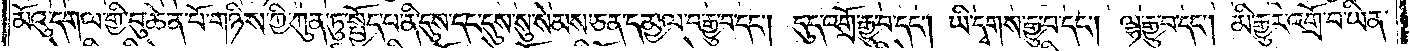མོའུ་དགལ་གྱི་བུ་ཆེན་པོ་གཉིས་ཀྱི་ཀུན་ཏུ་སྤྱོད་པ་ནི་དུས་དང་དུས་སུ་སེམས་ཅན་དམྱལ་བ་རྒྱུ་བ་དང༌། དུད་འགྲོ་རྒྱུ་བ་དང༌། ཡི་དྭགས་རྒྱུ་བ་དང༌། ལྷ་རྒྱུ་བ་དང༌། མི་རྒྱུར་འགྲོ་བ་ཡིན་
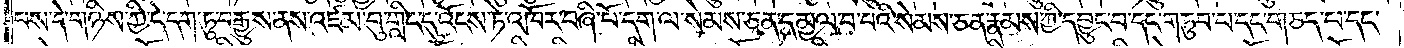པས་དེ་གཉིས་ཀྱི་དེ་དག་ཏུ་བརྒྱུས་ནས་འཛམ་བུ་གླིང་དུ་འོངས་ཏེ་འཁོར་བཞི་པོ་དག་ལ་སེམས་ཅན་དམྱལ་བ་པའི་སེམས་ཅན་རྣམས་ཀྱི་དབྱུང་བ་དང་གཏུབ་པ་དང་གཅད་པ་དང་
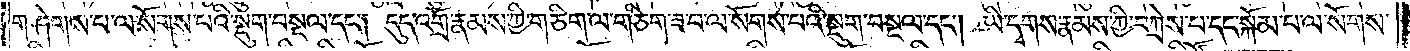གཤེགས་པ་ལ་སོགས་པའི་སྡུག་བསྔལ་དང༌། དུད་འགྲོ་རྣམས་ཀྱི་གཅིག་ལ་གཅིག་ཟ་བ་ལ་སོགས་པའི་སྡུག་བསྔལ་དང༌། ཡི་དྭགས་རྣམས་ཀྱི་བཀྲེས་པ་དང་སྐོམ་པ་ལ་སོགས་
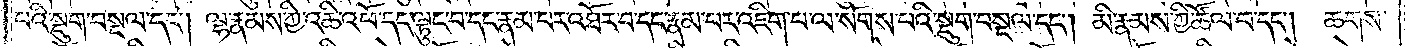པའི་སྡུག་བསྔལ་དང༌། ལྷ་རྣམས་ཀྱི་འཆི་འཕོ་དང་ལྟུང་བ་དང་རྣམ་པར་འཐོར་བ་དང་རྣམ་པར་འཇིག་པ་ལ་སོགས་པའི་སྡུག་བསྔལ་དང༌། མི་རྣམས་ཀྱི་ཚོལ་བ་དང༌། ཆགས་
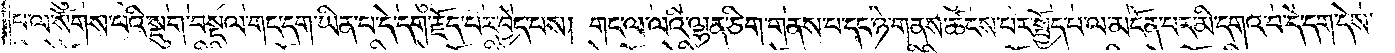པ་ལ་སོགས་པའི་སྡུག་བསྔལ་གང་དག་ཡིན་པ་དེ་དག་རྗོད་པར་བྱེད་པས། གང་ལ་ལའི་ལྷན་ཅིག་གནས་པ་དང་ཉེ་གནས་ཚངས་པར་སྤྱོད་པ་ལ་མངོན་པར་མི་དགའ་བ་དེ་དག་དེས་
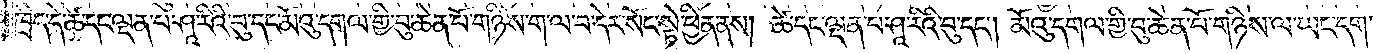ཁྲིད་དེ་ཚེ་དང་ལྡན་པ་ཤཱ་རིའི་བུ་དང་མོའུ་དགལ་གྱི་བུ་ཆེན་པོ་གཉིས་ག་ལ་བ་དེར་སོང་སྟེ་ཕྱིན་ནས། ཚེ་དང་ལྡན་པ་ཤཱ་རིའི་བུ་དང༌། མོའུ་དགལ་གྱི་བུ་ཆེན་པོ་གཉིས་ལ་ཡང་དག་
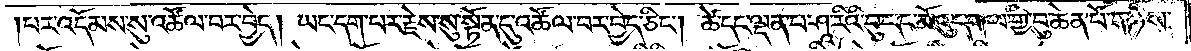པར་འདོམས་སུ་འཚོལ་བར་བྱེད། ཡང་དག་པར་རྗེས་སུ་སྟོན་དུ་འཚོལ་བར་བྱེད་ཅིང༌། ཚེ་དང་ལྡན་པ་ཤཱ་རིའི་བུ་དང་མོའུ་དགལ་གྱི་བུ་ཆེན་པོ་གཉིས་
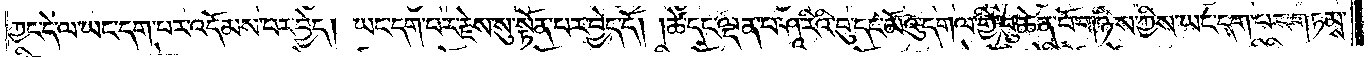ཀྱང་དེ་ལ་ཡང་དག་པར་འདོམས་པར་བྱེད། ཡང་དག་པར་རྗེས་སུ་སྟོན་པར་བྱེད་དོ། །ཚེ་དང་ལྡན་པ་ཤཱ་རིའི་བུ་དང་མོའུ་དགལ་གྱི་བུ་ཆེན་པོ་གཉིས་ཀྱིས་ཡང་དག་པར་གཏམས་
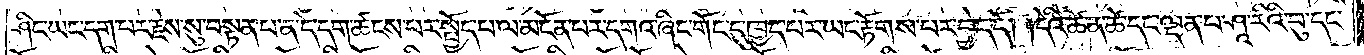ཤིང་ཡང་དག་པར་རྗེས་སུ་བསྟན་པ་ན་དེ་དག་ཚངས་པར་སྤྱོད་པ་ལ་མངོན་པར་དགའ་ཞིང་གོང་དུ་ཁྱད་པར་ཡང་རྟོགས་པར་བྱེད་དོ། །དེའི་ཚེ་ན་ཚེ་དང་ལྡན་པ་ཤཱ་རིའི་བུ་དང་
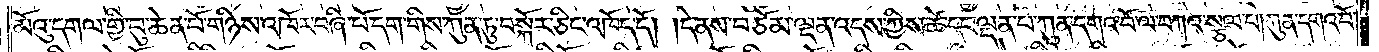མོའུ་དགལ་གྱི་བུ་ཆེན་པོ་གཉིས་འཁོར་བཞི་པོ་དག་གིས་ཀུན་ཏུ་བསྐོར་ཅིང་འཁོད་དོ། །དེ་ནས་བཅོམ་ལྡན་འདས་ཀྱིས་ཚེ་དང་ལྡན་པ་ཀུན་དགའ་བོ་ལ་བཀའ་སྩལ་པ། ཀུན་དགའ་བོ་
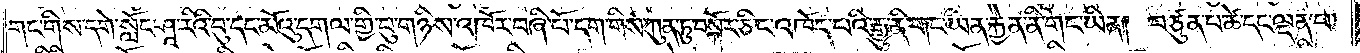གང་གིས་དགེ་སློང་ཤཱ་རིའི་བུ་དང་མོའུ་དགལ་གྱི་བུ་གཉིས་འཁོར་བཞི་པོ་དག་གིས་ཀུན་ཏུ་བསྐོར་ཅིང་འཁོད་པའི་རྒྱུ་ནི་གང་ཡིན་རྐྱེན་ནི་གང་ཡིན། བཙུན་པ་ཚེ་དང་ལྡན་པ་
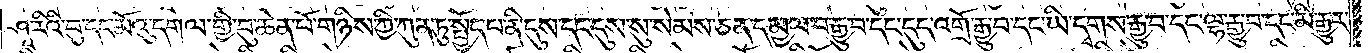ཤཱ་རིའི་བུ་དང་མོའུ་དགལ་གྱི་བུ་ཆེན་པོ་གཉིས་ཀྱི་ཀུན་ཏུ་སྤྱོད་པ་ནི་དུས་དང་དུས་སུ་སེམས་ཅན་དམྱལ་བ་རྒྱུ་བ་དང་དུད་འགྲོ་རྒྱུ་བ་དང་ཡི་དྭགས་རྒྱུ་བ་དང་ལྷ་རྒྱུ་བ་དང་མི་རྒྱུར་
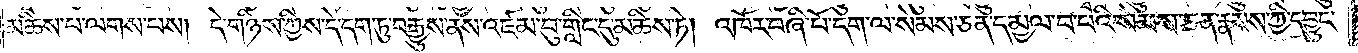མཆིས་པ་ལགས་པས། དེ་གཉིས་ཀྱིས་དེ་དག་ཏུ་བརྒྱུས་ནས་འཛམ་བུ་གླིང་དུ་མཆིས་ཏེ། འཁོར་བཞི་པོ་དག་ལ་སེམས་ཅན་དམྱལ་བ་པའི་སེམས་ཅན་རྣམས་ཀྱི་དབྱུང་
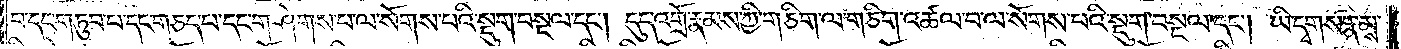བ་དང་གཏུབ་པ་དང་གཅད་པ་དང་གཤེགས་པ་ལ་སོགས་པའི་སྡུག་བསྔལ་དང༌། དུད་འགྲོ་རྣམས་ཀྱི་གཅིག་ལ་གཅིག་འཚལ་བ་ལ་སོགས་པའི་སྡུག་བསྔལ་དང༌། ཡི་དྭགས་རྣམས་
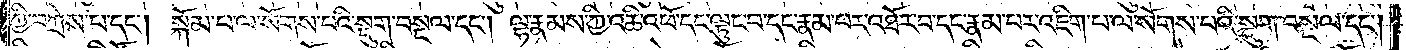ཀྱི་བཀྲེས་པ་དང༌། སྐོམ་པ་ལ་སོགས་པའི་སྡུག་བསྔལ་དང༌། ལྷ་རྣམས་ཀྱི་འཆི་འཕོ་དང་ལྟུང་བ་དང་རྣམ་པར་འཐོར་བ་དང་རྣམ་པར་འཇིག་པ་ལ་སོགས་པའི་སྡུག་བསྔལ་དང༌།
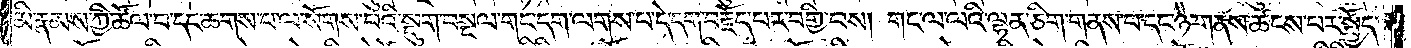མི་རྣམས་ཀྱི་ཚོལ་བ་དང་ཆགས་པ་ལ་སོགས་པའི་སྡུག་བསྔལ་གང་དག་ལགས་པ་དེ་དག་བརྗོད་པར་བགྱི་པས། གང་ལ་ལའི་ལྷན་ཅིག་གནས་པ་དང་ཉེ་གནས་ཚངས་པར་སྤྱོད་
